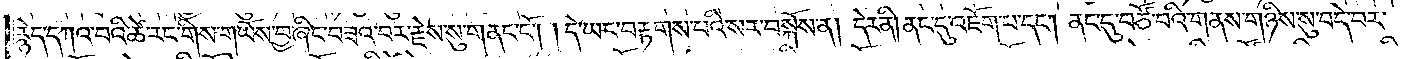རྙེད་དཀའ་བའི་ཚེ་རང་གིས་གཡོས་བྱ་ཞིང་བཟའ་བར་རྗེས་སུ་གནང་ངོ༌། །དེ་ཡང་བརྟགས་པའི་སར་བསྐོས་ན། དེར་ནི། ནང་དུ་འཇོག་པ་དང༌། ནང་དུ་བཙོ་བའི་གནས་གཉིས་སུ་བདེ་བར་
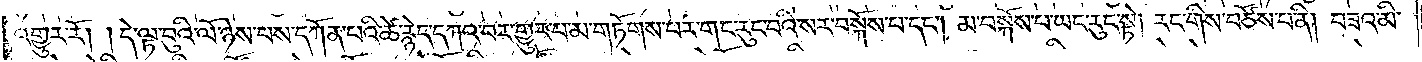འགྱུར་རོ། །དེ་ལྟ་བུའི་ལོ་ཉེས་པས་དཀོན་པའི་ཚེ་རྙེད་དཀའ་བར་གྱུར་པ་མ་གཏོགས་པར་གང་རུང་བའི་སར་བསྐོས་པ་དང༌། མ་བསྐོས་པ་ཡང་རུང་སྟེ། རང་གིས་བཙོས་པ་ནི། བཟའ་མི་
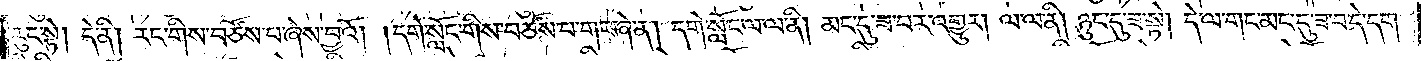རུང་སྟེ། དེ་ནི། རང་གིས་བཙོས་པ་ཞེས་བྱའོ། །དགེ་སློང་གིས་བཙོས་པ་གང་ཞེ་ན། དགེ་སློང་ལ་ལ་ནི། མང་དུ་ཟ་བར་འགྱུར། ལ་ལ་ནི། ཉུང་དུ་ཟ་སྟེ། དེ་ལ་གང་མང་དུ་ཟ་བ་དེ་དག་
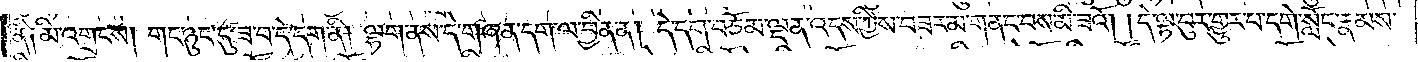ནི༑ མི་འགྲངས། གང་ཉུང་དུ་ཟ་བ་དེ་དག་ནི། ལྷག་ནས་དེ་གཞན་དག་ལ་བྱིན་ན། དེ་དག་བཅོམ་ལྡན་འདས་ཀྱིས་བཟར་མ་གནང་བས་མི་ཟའོ། །དེ་ལྟ་བུར་གྱུར་པ་དགེ་སློང་རྣམས་
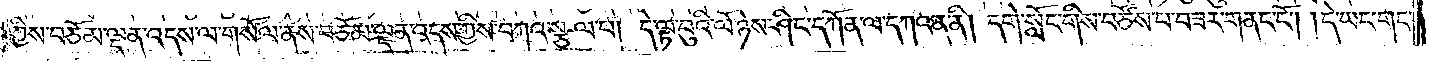ཀྱིས་བཅོམ་ལྡན་འདས་ལ་གསོལ་ནས་བཅོམ་ལྡན་འདས་ཀྱིས་བཀའ་སྩལ་པ། དེ་ལྟ་བུའི་ལོ་ཉེས་ཤིང་དཀོན་ལ་དཀའ་ན་ནི། དགེ་སློང་གིས་བཙོས་པ་བཟར་གནང་ངོ༌། །དེ་ཡང་གང་
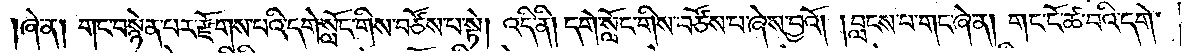ཞེ་ན། གང་བསྙེན་པར་རྫོགས་པའི་དགེ་སློང་གིས་བཙོས་པ་སྟེ། འདི་ནི། དགེ་སློང་གིས་བཙོས་པ་ཞེས་བྱའོ། །བླངས་པ་གང་ཞེ་ན། གང་ངོ་ཚ་བའི་དགེ་
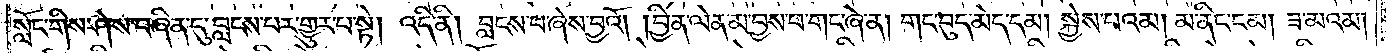སློང་གིས་ཤེས་བཞིན་དུ་བླངས་པར་གྱུར་པ་སྟེ། འདི་ནི། བླངས་པ་ཞེས་བྱའོ། །བྱིན་ལེན་མ་བྱས་པ་གང་ཞེ་ན། གང་བུད་མེད་དམ། སྐྱེས་པའམ། མ་ནིང་ངམ། ཟ་མའམ།
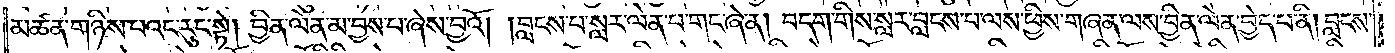མཚན་གཉིས་པའང་རུང་སྟེ། བྱིན་ལེན་མ་བྱས་པ་ཞེས་བྱའོ། །བླངས་པ་སླར་ལེན་པ་གང་ཞེ་ན། བདག་གིས་སླར་བླངས་པ་ལས་ཕྱིས་གཞན་ལས་བྱིན་ལེན་བྱེད་པ་ནི། བླངས་
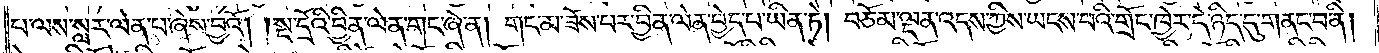པ་ལས་སླར་ལེན་པ་ཞེས་བྱའོ། །སྔ་དྲོའི་བྱིན་ལེན་གང་ཞེ་ན། གང་མ་ཟོས་པར་བྱིན་ལེན་བྱེད་པ་ཡིན་ཏེ། བཅོམ་ལྡན་འདས་ཀྱིས་ཡངས་པའི་གྲོང་ཁྱེར་དེ་ཉིད་དུ་གནང་བ་ནི།
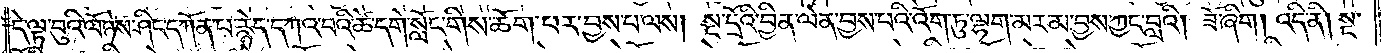དེ་ལྟ་བུའི་ལོ་ཉེས་ཤིང་དཀོན་པ་རྙེད་དཀའ་བའི་ཚེ་དགེ་སློང་གིས་ཆོག་པར་བྱས་པ་ལས། སྔ་དྲོའི་བྱིན་ལེན་བྱས་པའི་འོག་ཏུ་ལྷག་མར་མ་བྱས་ཀྱང་བླའི། ཟོ་ཞིག །འདི་ནི། སྔ་
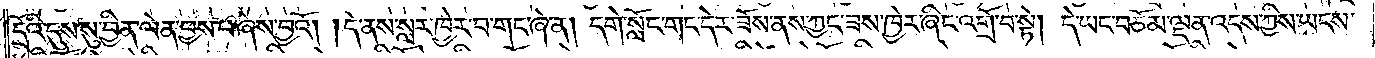དྲོའི་དུས་སུ་བྱིན་ལེན་བྱས་པ་ཞེས་བྱའོ། །དེ་ནས་སླར་ཁྱེར་བ་གང་ཞེ་ན། དགེ་སློང་གང་དེར་ཟོས་ནས་ཀྱང་ཟས་ཁྱེར་ཞིང་འགྲོ་བ་སྟེ། དེ་ཡང་བཅོམ་ལྡན་འདས་ཀྱིས་ཡངས་
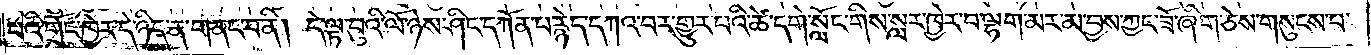པའི་གྲོང་ཁྱེར་དེ་ཉིད་ན་གནང་བ་ནི། དེ་ལྟ་བུའི་ལོ་ཉེས་ཤིང་དཀོན་པ་རྙེད་དཀའ་བར་གྱུར་པའི་ཚེ་དགེ་སློང་གིས་སླར་ཁྱེར་བ་ལྷག་མར་མ་བྱས་ཀྱང་ཟོ་ཞིག་ཅེས་གསུངས་པ་
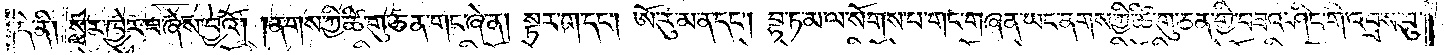དེ་ནི། སླར་ཁྱེར་བ་ཞེས་བྱའོ། །ནགས་ཀྱི་ཚེ་གུ་ཅན་གང་ཞེ་ན། སྟར་ག་དང༌། ཨོ་རུ་མ་ན་དང༌། བྷ་ཏ་མ་ལ་སོགས་པ་གང་གཞན་ཡང་ནགས་ཀྱི་ཚི་གུ་ཅན་གྱི་བཟའ་ཤིང་གི་འབྲས་བུ་
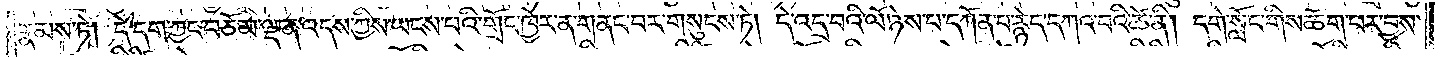རྣམས་ཏེ། དེ་དག་ཀྱང་བཅོམ་ལྡན་འདས་ཀྱིས་ཡངས་པའི་གྲོང་ཁྱེར་ན་གནང་བར་གསུངས་ཏེ། དེ་འདྲ་བའི་ལོ་ཉེས་པ་དཀོན་པ་རྙེད་དཀའ་བའི་ཚེ་ནི། དགེ་སློང་གིས་ཆོག་པར་བྱས་
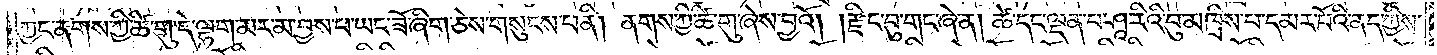ཀྱང་ནགས་ཀྱི་ཚི་གུ་དེ་ལྷག་མར་མ་བྱས་པ་ཡང་ཟོ་ཞིག་ཅེས་གསུངས་པ་ནི། ནགས་ཀྱི་ཚི་གུ་ཞེས་བྱའོ། །རྫིང་བུ་གང་ཞེ་ན། ཚེ་དང་ལྡན་པ་ཤཱ་རིའི་བུ་མཁྲིས་པ་དམར་པོའི་ནད་ཀྱིས་
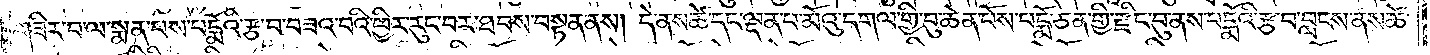གཟིར་བ་ལ་སྨན་པས་པདྨོའི་རྩ་བ་བཟའ་བའི་ཕྱིར་རུང་བར་ཐབས་བསྟན་ནས། དེ་ནས་ཚེ་དང་ལྡན་པ་མོའུ་དགལ་གྱི་བུ་ཆེན་པོས་པདྨོ་ཅན་གྱི་རྫིང་བུ་ནས་པདྨོའི་རྩ་བ་བླངས་ནས་ཚེ་
